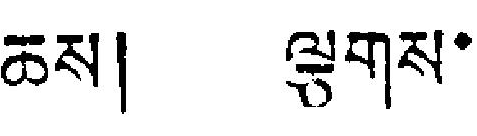ཆས། ལྕགས་
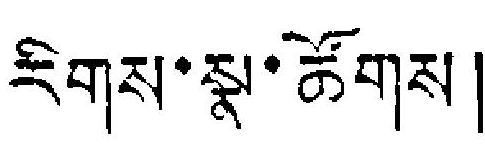རིགས་སྣ་ཚོགས།
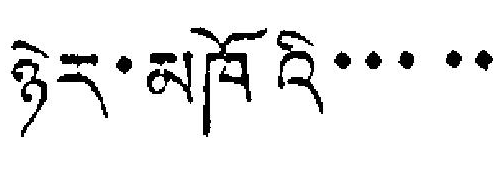ཉེར་མཁོའི་་་་་
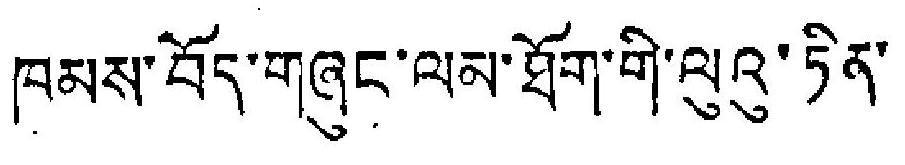ཁམས་བོད་གཞུང་ལམ་ཐོག་གི་ལུའུ་ཏིན་
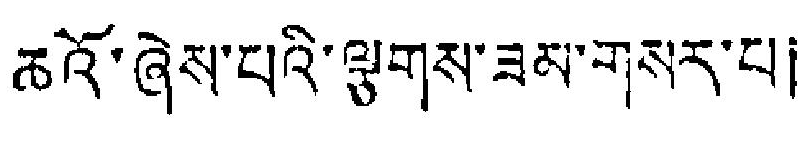ཆའོ་ཞེས་པའི་ལྕགས་ཟམ་གསར་པ།
